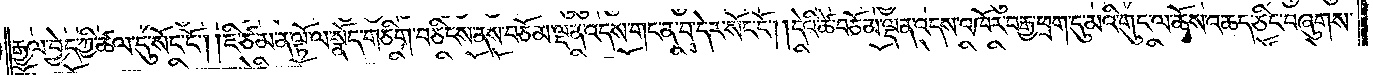རྒྱལ་བྱེད་ཀྱི་ཚལ་དུ་སོང་ངོ༌། །ཇི་ཙམ་ན་ལྟོ་ལ་སྣོད་གཅིག་བཅིངས་ནས་བཅོམ་ལྡན་འདས་གང་ན་བ་དེར་སོང་ངོ༌། །དེའི་ཚེ་བཅོམ་ལྡན་འདས་འཁོར་བརྒྱ་ཕྲག་དུ་མའི་གུང་ལ་ཆོས་འཆད་ཅིང་བཞུགས་
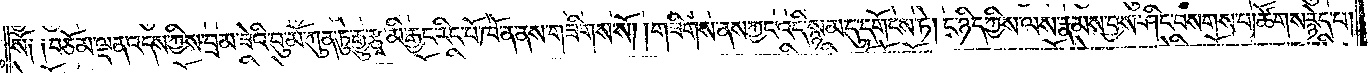སོ༑ ༑བཅོམ་ལྡན་འདས་ཀྱིས་བྲམ་ཟེའི་བུ་མོ་ཀུན་ཏུ་རྒྱུ་རྩྭ་མི་རྒྱང་རིང་པོ་ཁོ་ན་ནས་གཟིགས་སོ། །གཟིགས་ནས་ཀྱང་འདི་སྙམ་དུ་དགོངས་ཏེ། ང་ཉིད་ཀྱིས་ལས་རྣམས་བྱས་ཤིང་བསགས་པ། ཚོགས་རྙེད་པ།
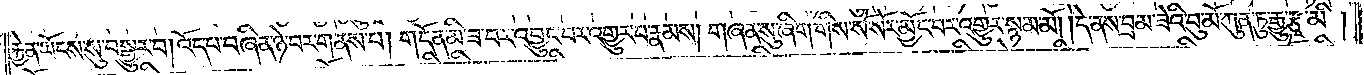རྐྱེན་ཡོངས་སུ་བསྒྱུར་བ། འོད་པ་བཞིན་ཉེ་བར་གནས་པ། གདོན་མི་ཟ་བར་འབྱུང་བར་འགྱུར་བ་རྣམས། གཞན་སུ་ཞིག་གིས་སོ་སོར་མྱོང་བར་འགྱུར་སྙམ་མོ། །དེ་ནས་བྲམ་ཟེའི་བུ་མོ་ཀུན་ཏུ་རྒྱུ་རྩྭ་མི།
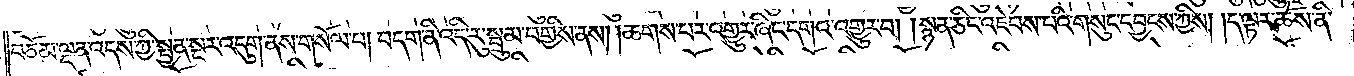བཅོམ་ལྡན་འདས་ཀྱི་སྤྱན་སྔར་འདུག་ནས་གསོལ་པ། བདག་ནི་འདི་རུ་སྦྲུམ་བགྱིས་ནས། །ཆགས་པར་འགྱུར་ཞིང་དགའ་འགྱུར་བ། །སྙན་ཅིང་འཇེབས་པའི་གསུང་དབྱངས་ཀྱིས། །ད་ལྟར་ཆོས་ནི་
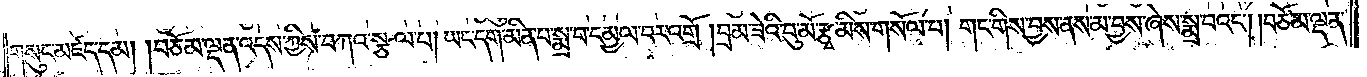གསུང་མཛད་དམ། །བཅོམ་ལྡན་འདས་ཀྱིས་བཀའ་སྩལ་པ། ཡང་དག་མིན་པ་སྨྲ་བ་དམྱལ་བར་འགྲོ །བྲམ་ཟེའི་བུ་མོ་རྩྭ་མིས་གསོལ་པ། གང་གིས་བྱས་ནས་མ་བྱས་ཞེས་སྨྲ་བའང༌། །བཅོམ་ལྡན་
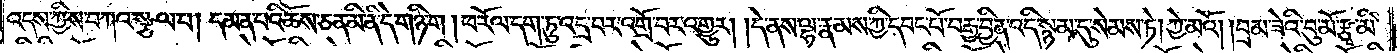འདས་ཀྱིས་བཀའ་སྩལ་པ། དམན་པའི་ཆོས་ཅན་མི་ནི་དེ་གཉི་ག །ཕ་རོལ་དག་ཏུ་འདྲ་བར་འགྲོ་བར་འགྱུར། །དེ་ནས་ལྷ་རྣམས་ཀྱི་དབང་པོ་བརྒྱ་བྱིན་འདི་སྙམ་དུ་སེམས་ཏེ། ཀྱེ་མའོ། །བྲམ་ཟེའི་བུ་མོ་རྩྭ་མི་
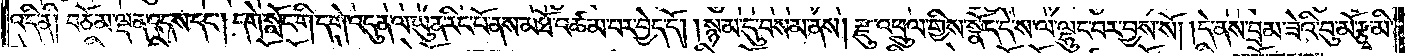འདི་ནི། བཅོམ་ལྡན་འདས་དང༌། དགེ་སློང་གི་དགེ་འདུན་ལ་ཡུན་རིང་པོ་ནས་མཐོ་འཚམ་པར་བྱེད་དོ། །སྙམ་དུ་བསམ་ནས། རྫུ་འཕྲུལ་གྱིས་སྣོད་དེ་ས་ལ་ལྷུང་བར་བྱས་སོ། །དེ་ནས་བྲམ་ཟེའི་བུ་མོ་རྩྭ་མི་
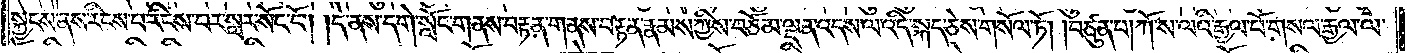སྐྱེངས་ནས་རིངས་པ་རིངས་པར་སླར་སོང་ངོ༌། །དེ་ནས་དགེ་སློང་གནས་བརྟན་གནས་བརྟན་རྣམས་ཀྱིས་བཅོམ་ལྡན་འདས་ལ་འདི་སྐད་ཅེས་གསོལ་ཏོ། །བཙུན་པ། ཀོ་ས་ལའི་རྒྱལ་པོ་གསལ་རྒྱལ་ལ་
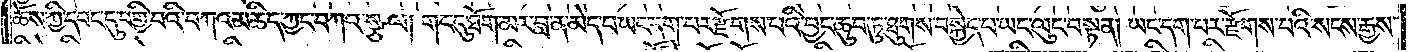ཆོས་ཀྱི་དབང་དུ་བགྱི་བའི་བཀའ་མཆིད་ཀྱང་བཀའ་སྩལ། གང་དུ་ཐོག་མར་བླ་ན་མེད་པ་ཡང་དག་པར་རྫོགས་པའི་བྱང་ཆུབ་ཏུ་ཐུགས་བསྐྱེད་པ་ཡང་ལུང་བསྟན། ཡང་དག་པར་རྫོགས་པའི་སངས་རྒྱས་
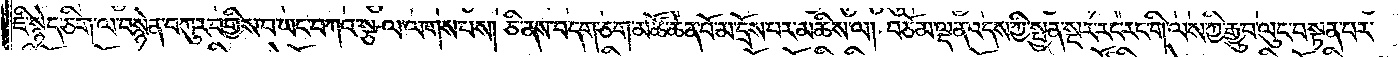ཇི་སྙེད་ཅིག་ལ་བསྙེན་བཀུར་བགྱིས་པ་ཡང་བཀའ་སྩལ་ལགས་པས། ཅི་ནས་བདག་ཅག་མཚོ་ཆེན་པོ་མ་དྲོས་པར་མཆིས་ལ། བཅོམ་ལྡན་འདས་ཀྱི་སྤྱན་སྔར་རང་རང་གི་ལས་ཀྱི་རྒྱུ་བ་ལུང་བསྟན་པར་
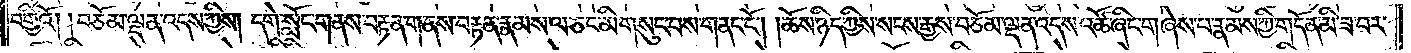བགྱིའོ། །བཅོམ་ལྡན་འདས་ཀྱིས། དགེ་སློང་གནས་བརྟན་གནས་བརྟན་རྣམས་ལ་ཅང་མི་གསུང་བས་གནང་ངོ༌། །ཆོས་ཉིད་ཀྱིས་སངས་རྒྱས་བཅོམ་ལྡན་འདས་འཚོ་ཞིང་གཞེས་པ་རྣམས་ཀྱི་གདོན་མི་ཟ་བར་
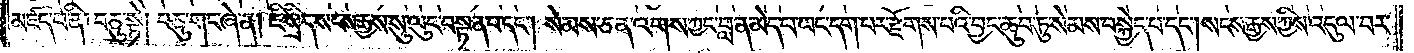མཛད་པ་ནི། བཅུ་སྟེ། བཅུ་གང་ཞེ་ན། ཇི་སྲིད་སངས་རྒྱས་སུ་ལུང་བསྟན་པ་དང༌། སེམས་ཅན་འགས་ཀྱང་བླ་ན་མེད་པ་ཡང་དག་པར་རྫོགས་པའི་བྱང་ཆུབ་ཏུ་སེམས་བསྐྱེད་པ་དང༌། སངས་རྒྱས་ཀྱིས་འདུལ་བར་
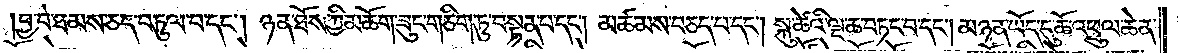བྱ་བ་ཐམས་ཅད་བཏུལ་བ་དང༌། ཉན་ཐོས་ཀྱི་མཆོག་ཟུང་གཅིག་ཏུ་བསྟན་པ་དང༌། མཚམས་བཅད་པ་དང༌། སྐུ་ཚེའི་ལྔ་ཆ་བཏང་བ་དང༌། མཉན་ཡོད་དུ་ཆོ་འཕྲུལ་ཆེན་
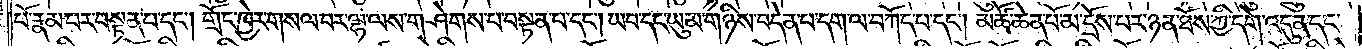པོ་རྣམ་པར་བསྟན་པ་དང༌། གྲོང་ཁྱེར་གསལ་བར་ལྷ་ལས་གཤེགས་པ་བསྟན་པ་དང༌། ཡབ་དང་ཡུམ་གཉིས་བདེན་པ་དག་ལ་བཀོད་པ་དང༌། མཚོ་ཆེན་པོ་མ་དྲོས་པར་ཉན་ཐོས་ཀྱི་དགེ་འདུན་དང་
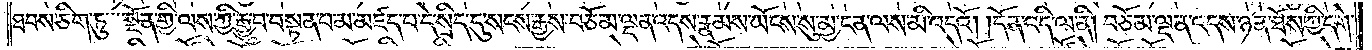ཐབས་ཅིག་ཏུ་སྔོན་གྱི་ལས་ཀྱི་རྒྱུ་བ་བསྟན་པ་མ་མཛད་པ་དེ་སྲིད་དུ་སངས་རྒྱས་བཅོམ་ལྡན་འདས་རྣམས་ཡོངས་སུ་མྱ་ངན་ལས་མི་འདའོ། །དོན་འདི་ལ་ནི། བཅོམ་ལྡན་འདས་ཉན་ཐོས་ཀྱི་དགེ་
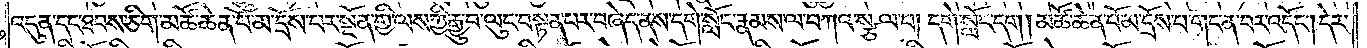འདུན་དང་ཐབས་ཅིག་མཚོ་ཆེན་པོ་མ་དྲོས་པར་སྔོན་གྱི་ལས་ཀྱི་རྒྱུ་བ་ལུང་བསྟན་པར་བཞེད་ནས་དགེ་སློང་རྣམས་ལ་བཀའ་སྩལ་བ། དགེ་སློང་དག །མཚོ་ཆེན་པོ་མ་དྲོས་པ་གང་ན་བར་འདོང༌། དེར་
